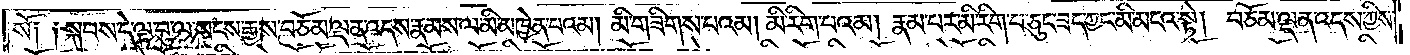སོ༑ ༑སྐབས་དེ་ལྟ་བུ་ལ་སངས་རྒྱས་བཅོམ་ལྡན་འདས་རྣམས་ལ་མི་མཁྱེན་པའམ། མི་གཟིགས་པའམ། མི་རིག་པའམ། རྣམ་པར་མི་རིག་པ་ཅུང་ཟད་ཀྱང་མི་མངའ་སྟེ། བཅོམ་ལྡན་འདས་ཀྱིས་
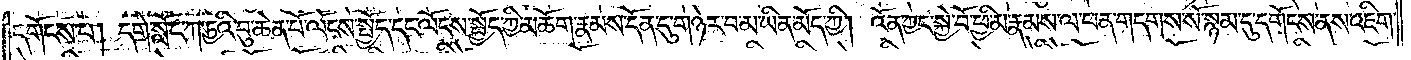དགོངས་པ། དགེ་སློང་ཀ་ཏྱའི་བུ་ཆེན་པོ་ལོངས་སྤྱོད་དང་ལོངས་སྤྱོད་ཀྱི་མཆོག་རྣམས་དོན་དུ་གཉེར་བ་མ་ཡིན་མོད་ཀྱི། འོན་ཀྱང་སྐྱེ་བོ་ཕྱི་མ་རྣམས་ལ་ཕན་གདགས་སོ་སྙམ་དུ་དགོངས་ནས་འཇིག་
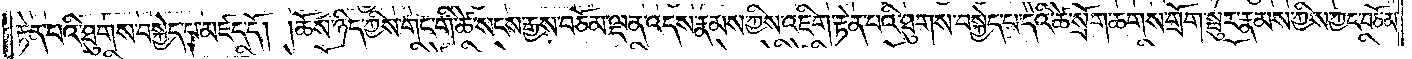རྟེན་པའི་ཐུགས་བསྐྱེད་པ་མཛད་དོ། །ཆོས་ཉིད་ཀྱིས་གང་གི་ཚེ་སངས་རྒྱས་བཅོམ་ལྡན་འདས་རྣམས་ཀྱིས་འཇིག་རྟེན་པའི་ཐུགས་བསྐྱེད་པ་དེའི་ཚེ་སྲོག་ཆགས་གྲོག་སྦུར་རྣམས་ཀྱིས་ཀྱང་བཅོམ་
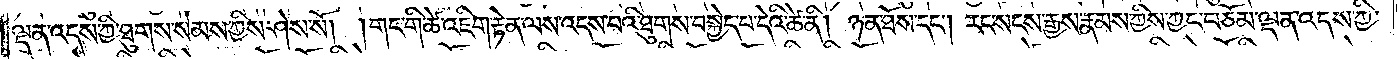ལྡན་འདས་ཀྱི་ཐུགས་སེམས་ཀྱིས་ཤེས་སོ། །གང་གི་ཚེ་འཇིག་རྟེན་ལས་འདས་པའི་ཐུགས་བསྐྱེད་པ་དེའི་ཚེ་ནི། ཉན་ཐོས་དང༌། རང་སངས་རྒྱས་རྣམས་ཀྱིས་ཀྱང་བཅོམ་ལྡན་འདས་ཀྱི་
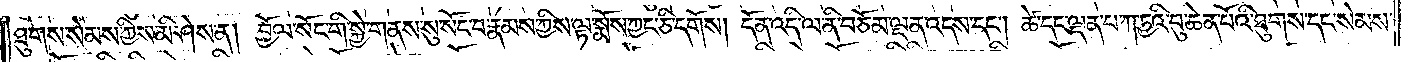ཐུགས་སེམས་ཀྱིས་མི་ཤེས་ན། བྱོལ་སོང་གི་སྐྱེ་གནས་སུ་སོང་བ་རྣམས་ཀྱིས་ལྟ་སྨོས་ཀྱང་ཅི་དགོས། དོན་འདི་ལ་ནི་བཅོམ་ལྡན་འདས་དང༌། ཚེ་དང་ལྡན་པ་ཀ་ཏྱའི་བུ་ཆེན་པོའི་ཐུགས་དང་སེམས་
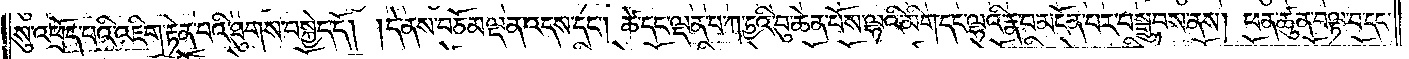སུ་འཕྲོད་པའི་འཇིག་རྟེན་པའི་ཐུགས་བསྐྱེད་དོ། །དེ་ནས་བཅོམ་ལྡན་འདས་དང༌། ཚེ་དང་ལྡན་པ་ཀ་ཏྱའི་བུ་ཆེན་པོས་ལྷའི་མིག་དང་ལྷའི་རྣ་བ་མངོན་པར་བསྒྲུབས་ནས། ཕན་ཚུན་བལྟ་བ་དང་
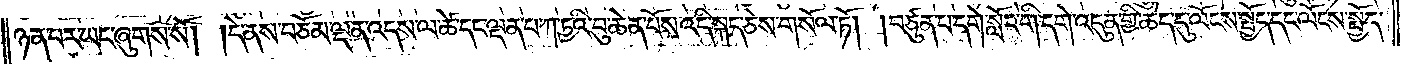ཉན་པར་ཡང་ཞུགས་སོ། །དེ་ནས་བཅོམ་ལྡན་འདས་ལ་ཚེ་དང་ལྡན་པ་ཀ་ཏྱའི་བུ་ཆེན་པོས་འདི་སྐད་ཅེས་གསོལ་ཏོ། །བཙུན་པ་དགེ་སློང་གི་དགེ་འདུན་གྱི་ཆེད་དུ་ལོངས་སྤྱོད་དང་ལོངས་སྤྱོད་
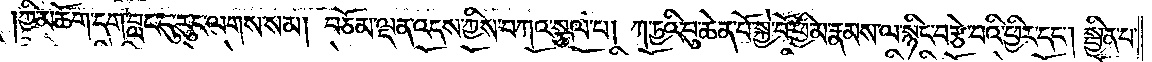།ཀྱི་མཆོག་དག་བླང་དུ་རུང་ལགས་སམ། བཅོམ་ལྡན་འདས་ཀྱིས་བཀའ་སྩལ་པ། ཀ་ཏྱའི་བུ་ཆེན་པོ་སྐྱེ་བོ་ཕྱི་མ་རྣམས་ལ་སྙིང་བརྩེ་བའི་ཕྱིར་དང༌། སྦྱིན་པ་
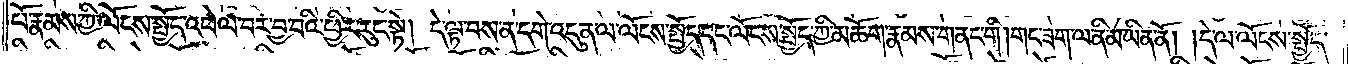པོ་རྣམས་ཀྱི་ལོངས་སྤྱོད་འཕེལ་བར་བྱ་བའི་ཕྱིར་རུང་སྟེ། དེ་ལྟ་བས་ན་དགེ་འདུན་ལ་ལོངས་སྤྱོད་དང་ལོངས་སྤྱོད་ཀྱི་མཆོག་རྣམས་གནང་གི །གང་ཟག་ལ་ནི་མ་ཡིན་ནོ། །དེ་ལ་ལོངས་སྤྱོད་
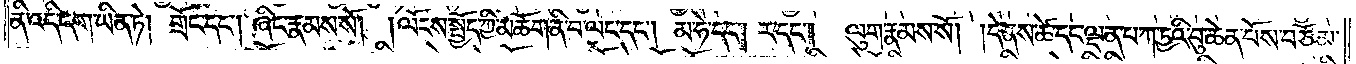ནི་འདི་དག་ཡིན་ཏེ། གྲོང་དང༌། ཞིང་རྣམས་སོ། །ལོངས་སྤྱོད་ཀྱི་མཆོག་ནི་བ་ལང་དང༌། མ་ཧེ་དང༌། ར་དང༌། ལུག་རྣམས་སོ། །དེ་ནས་ཚེ་དང་ལྡན་པ་ཀ་ཏྱའི་བུ་ཆེན་པོས་བཅོམ་
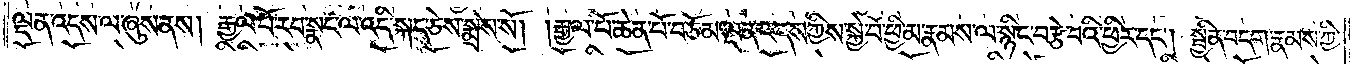ལྡན་འདས་ལ་ཞུས་ནས། རྒྱལ་པོ་རབ་སྣང་ལ་འདི་སྐད་ཅེས་སྨྲས་སོ། །རྒྱལ་པོ་ཆེན་པོ་བཅོམ་ལྡན་འདས་ཀྱིས་སྐྱེ་བོ་ཕྱི་མ་རྣམས་ལ་སྙིང་བརྩེ་བའི་ཕྱིར་དང༌། སྦྱིན་བདག་རྣམས་ཀྱི་
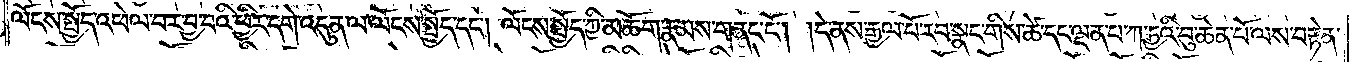ལོངས་སྤྱོད་འཕེལ་བར་བྱ་བའི་ཕྱིར་དགེ་འདུན་ལ་ལོངས་སྤྱོད་དང༌། ལོངས་སྤྱོད་ཀྱི་མཆོག་རྣམས་གནང་ངོ༌། །དེ་ནས་རྒྱལ་པོ་རབ་སྣང་གིས་ཚེ་དང་ལྡན་པ་ཀ་ཏྱའི་བུ་ཆེན་པོ་ལས་བརྟེན་
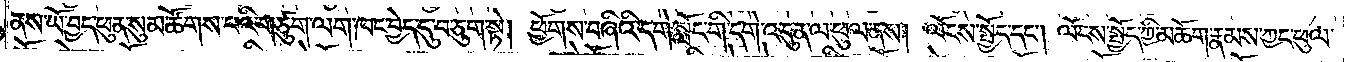ནས་ཡོ་བྱད་ཕུན་སུམ་ཚོགས་པའི་གཙུག་ལག་ཁང་བྱེད་དུ་བཅུག་སྟེ། ཕྱོགས་བཞིའི་དགེ་སློང་གི་དགེ་འདུན་ལ་ཕུལ་ནས། ལོངས་སྤྱོད་དང༌། ལོངས་སྤྱོད་ཀྱི་མཆོག་རྣམས་ཀྱང་ཕུལ་
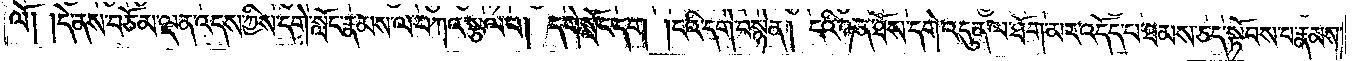ལོ། །དེ་ནས་བཅོམ་ལྡན་འདས་ཀྱིས་དགེ་སློང་རྣམས་ལ་བཀའ་སྩལ་པ། དགེ་སློང་དག །ངའི་དགེ་བསྙེན། ངའི་ཉན་ཐོས་དགེ་འདུན་ལ་ཐོག་མར་འདོད་པ་ཐམས་ཅད་སྟོབས་པ་རྣམས་
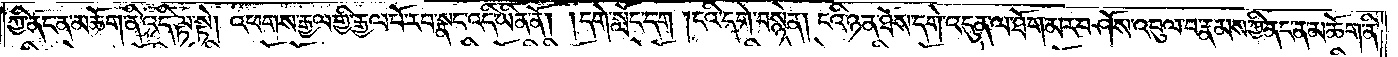ཀྱི་ནང་ན་མཆོག་ནི་འདི་ལྟ་སྟེ། འཕགས་རྒྱལ་གྱི་རྒྱལ་པོ་རབ་སྣང་འདི་ཡིན་ནོ། །དགེ་སློང་དག །ངའི་དགེ་བསྙེན། ངའི་ཉན་ཐོས་དགེ་འདུན་ལ་ཐོག་མར་བཤོས་འབུལ་བ་རྣམས་ཀྱི་ནང་ན་མཆོག་ནི་
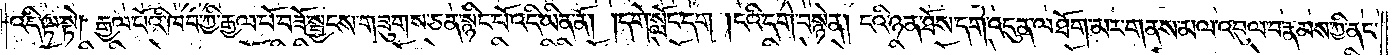འདི་ལྟ་སྟེ། རྒྱལ་པོའི་ཁབ་ཀྱི་རྒྱལ་པོ་བཟོ་སྦྱངས་གཟུགས་ཅན་སྙིང་པོ་འདི་ཡིན་ནོ། །དགེ་སློང་དག །ངའི་དགེ་བསྙེན། ངའི་ཉན་ཐོས་དགེ་འདུན་ལ་ཐོག་མར་གནས་མལ་འབུལ་བ་རྣམས་ཀྱི་ནང་
